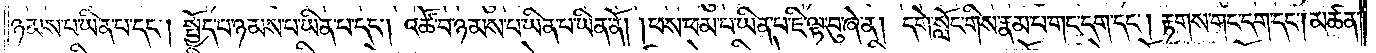ཉམས་པ་ཡིན་པ་དང༌། སྤྱོད་པ་ཉམས་པ་ཡིན་པ་དང༌། འཚོ་བ་ཉམས་པ་ཡིན་པ་ཡིན་ནོ། །ཕས་ཕམ་པ་ཡིན་པ་ཇི་ལྟ་བུ་ཞེ་ན། དགེ་སློང་གིས་རྣམ་པ་གང་དག་དང༌། རྟགས་གང་དག་དང༌། མཚན་
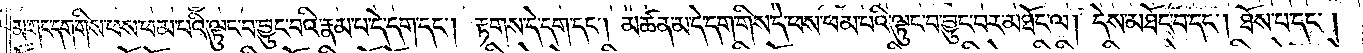མ་གང་དག་གིས་ཕས་ཕམ་པའི་ལྟུང་བ་བྱུང་བའི་རྣམ་པ་དེ་དག་དང༌། རྟགས་དེ་དག་དང༌། མཚན་མ་དེ་དག་གིས་དེ་ཕས་ཕམ་པའི་ལྟུང་བ་བྱུང་བར་མཐོང་ལ། དེས་མཐོང་བ་དང༌། ཐོས་པ་དང༌།
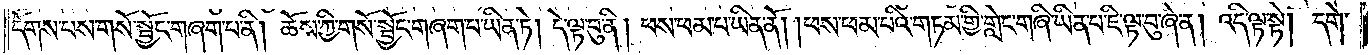དོགས་པས་གསོ་སྦྱོང་གཞག་པ་ནི། ཆོས་ཀྱི་གསོ་སྦྱོང་གཞག་པ་ཡིན་ཏེ། དེ་ལྟ་བུ་ནི། ཕས་ཕམ་པ་ཡིན་ནོ། །ཕས་ཕམ་པའི་གཏམ་གྱི་གླེང་གཞི་ཡིན་པ་ཇི་ལྟ་བུ་ཞེ་ན། འདི་ལྟ་སྟེ། དགེ་
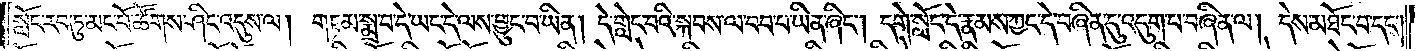སློང་རབ་ཏུ་མང་པོ་ཚོགས་ཤིང་འདུས་ལ། གཏམ་སྨྲ་བ་དེ་ཡང་དེ་ལས་བྱུང་བ་ཡིན། དེ་གླེང་བའི་སྐབས་ལ་བབ་པ་ཡིན་ཞིང༌། དགེ་སློང་དེ་རྣམས་ཀྱང་དེ་བཞིན་དུ་འདུག་པ་བཞིན་ལ། དེས་མཐོང་བ་དང་
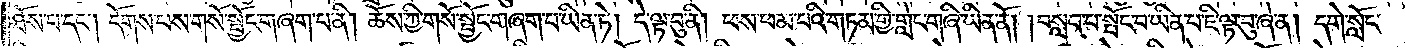ཐོས་པ་དང༌། དོགས་པས་གསོ་སྦྱོང་གཞག་པ་ནི། ཆོས་ཀྱི་གསོ་སྦྱོང་གཞག་པ་ཡིན་ཏེ། དེ་ལྟ་བུ་ནི། ཕས་ཕམ་པའི་གཏམ་གྱི་གླེང་གཞི་ཡིན་ནོ། །བསླབ་པ་སྤོང་བ་ཡིན་པ་ཇི་ལྟ་བུ་ཞེ་ན། དགེ་སློང་
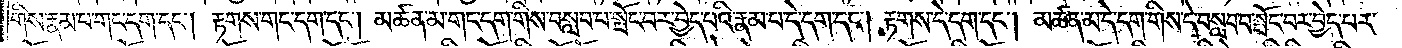གིས་རྣམ་པ་གང་དག་དང༌། རྟགས་གང་དག་དང༌། མཚན་མ་གང་དག་གིས་བསླབ་པ་སྤོང་བར་བྱེད་པའི་རྣམ་པ་དེ་དག་དང༌། རྟགས་དེ་དག་དང༌། མཚན་མ་དེ་དག་གིས་དེ་བསླབ་པ་སྤོང་བར་བྱེད་པར་
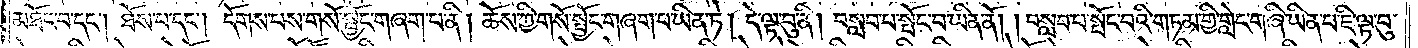མཐོང་བ་དང༌། ཐོས་པ་དང༌། དོགས་པས་གསོ་སྦྱོང་གཞག་པ་ནི། ཆོས་ཀྱི་གསོ་སྦྱོང་གཞག་པ་ཡིན་ཏེ། དེ་ལྟ་བུ་ནི། བསླབ་པ་སྤོང་བ་ཡིན་ནོ། །བསླབ་པ་སྤོང་བའི་གཏམ་གྱི་གླེང་གཞི་ཡིན་པ་ཇི་ལྟ་བུ་
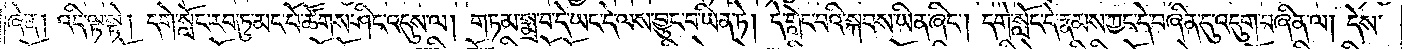ཞེ་ན། འདི་ལྟ་སྟེ། དགེ་སློང་རབ་ཏུ་མང་པོ་ཚོགས་ཤིང་འདུས་ལ། གཏམ་སྨྲ་བ་དེ་ཡང་དེ་ལས་བྱུང་བ་ཡིན་ཏེ། དེ་གླེང་བའི་སྐབས་ཡིན་ཞིང༌། དགེ་སློང་དེ་རྣམས་ཀྱང་དེ་བཞིན་དུ་འདུག་བཞིན་ལ། དེས་
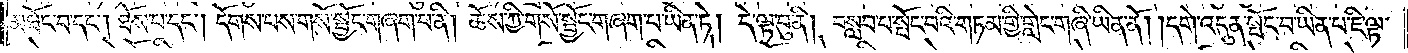མཐོང་བ་དང༌། ཐོས་པ་དང༌། དོགས་པས་གསོ་སྦྱོང་གཞག་པ་ནི། ཆོས་ཀྱི་གསོ་སྦྱོང་གཞག་པ་ཡིན་ཏེ། དེ་ལྟ་བུ་ནི། བསླབ་པ་སྤོང་བའི་གཏམ་གྱི་གླེང་གཞི་ཡིན་ནོ། །དགེ་འདུན་སྤོང་བ་ཡིན་པ་ཇི་ལྟ་
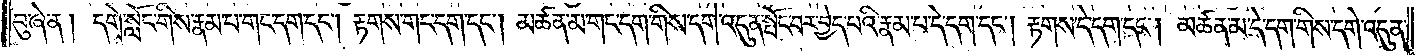བུ་ཞེ་ན། དགེ་སློང་གིས་རྣམ་པ་གང་དག་དང༌། རྟགས་གང་དག་དང༌། མཚན་མ་གང་དག་གིས་དགེ་འདུན་སྤོང་བར་བྱེད་པའི་རྣམ་པ་དེ་དག་དང༌། རྟགས་དེ་དག་དང༌། མཚན་མ་དེ་དག་གིས་དགེ་འདུན་
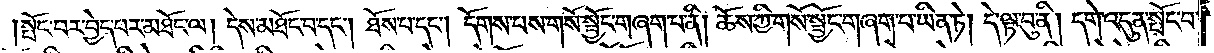སྤོང་བར་བྱེད་པར་མཐོང་ལ། དེས་མཐོང་བ་དང༌། ཐོས་པ་དང༌། དོགས་པས་གསོ་སྦྱོང་གཞག་བ་ནི། ཆོས་ཀྱི་གསོ་སྦྱོང་གཞག་པ་ཡིན་ཏེ། དེ་ལྟ་བུ་ནི། དགེ་འདུན་སྤོང་བ་
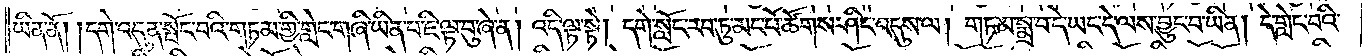ཡིན་ནོ། །དགེ་འདུན་སྤོང་བའི་གཏམ་གྱི་གླེང་གཞི་ཡིན་པ་ཇི་ལྟ་བུ་ཞེ་ན། འདི་ལྟ་སྟེ། དགེ་སློང་རབ་ཏུ་མང་པོ་ཚོགས་ཤིང་འདུས་ལ། གཏམ་སྨྲ་བ་དེ་ཡང་དེ་ལས་བྱུང་བ་ཡིན། དེ་གླེང་བའི་
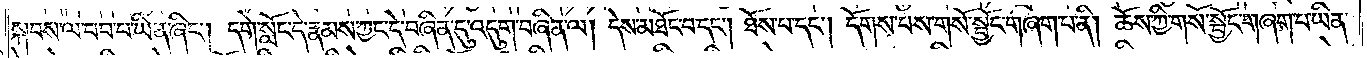སྐབས་ལ་བབ་པ་ཡིན་ཞིང༌། དགེ་སློང་དེ་རྣམས་ཀྱང་དེ་བཞིན་དུ་འདུག་བཞིན་ལ། དེས་མཐོང་བ་དང༌། ཐོས་པ་དང༌། དོགས་པས་གསོ་སྦྱོང་གཞག་པ་ནི། ཆོས་ཀྱི་གསོ་སྦྱོང་གཞག་པ་ཡིན་
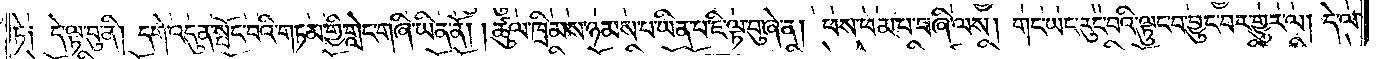ཏེ། དེ་ལྟ་བུ་ནི། དགེ་འདུན་སྤོང་བའི་གཏམ་གྱི་གླེང་གཞི་ཡིན་ནོ། །ཚུལ་ཁྲིམས་ཉམས་པ་ཡིན་པ་ཇི་ལྟ་བུ་ཞེ་ན། ཕས་ཕམ་པ་བཞི་ལས། གང་ཡང་རུང་བའི་ལྟུང་བ་བྱུང་བར་གྱུར་ལ། དེ་ལ་
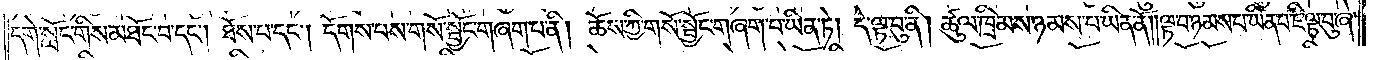དགེ་སློང་གིས་མཐོང་བ་དང༌། ཐོས་པ་དང༌། དོགས་པས་གསོ་སྦྱོང་གཞག་པ་ནི། ཆོས་ཀྱི་གསོ་སྦྱོང་གཞག་པ་ཡིན་ཏེ། དེ་ལྟ་བུ་ནི། ཚུལ་ཁྲིམས་ཉམས་པ་ཡིན་ནོ། །ལྟ་བ་ཉམས་པ་ཡིན་པ་ཇི་ལྟ་བུ་ཞེ་
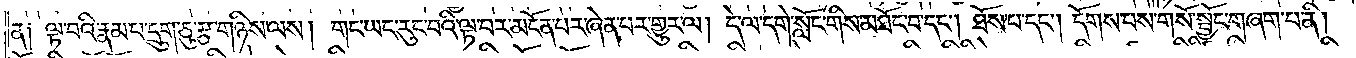ན། ལྟ་བའི་རྣམ་པ་དྲུག་ཅུ་རྩ་གཉིས་ལས། གང་ཡང་རུང་བའི་ལྟ་བར་མངོན་པར་ཞེན་པར་གྱུར་ལ། དེ་ལ་དགེ་སློང་གིས་མཐོང་བ་དང༌། ཐོས་པ་དང༌། དོགས་པས་གསོ་སྦྱོང་གཞག་པ་ནི།
